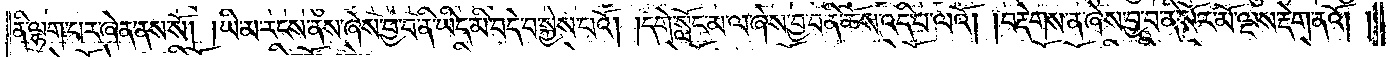ནི་ལྷག་པར་ཞེན་ནས་སོ། །ཡི་མ་རངས་ནས་ཞེས་བྱ་བ་ནི་ཡིད་མི་བདེ་བ་སྐྱེས་པའོ། །དགེ་སློང་མ་ལ་ཞེས་བྱ་བ་ནི་ཆོས་འདི་པ་ལའོ། །བརྡེགས་ན་ཞེས་བྱ་བ་ནི་སོར་མོ་ལྔས་རྡེག་ནའོ། །
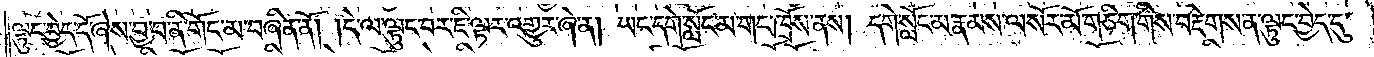ལྟུང་བྱེད་དོ་ཞེས་བྱ་བ་ནི་གོང་མ་བཞིན་ནོ། །དེ་ལ་ལྟུང་བར་ཇི་ལྟར་འགྱུར་ཞེ་ན། ཡང་དགེ་སློང་མ་གང་ཁྲོས་ནས། དགེ་སློང་མ་རྣམས་ལ་སོར་མོ་གཅིག་གིས་བརྡེགས་ན་ལྟུང་བྱེད་དུ་
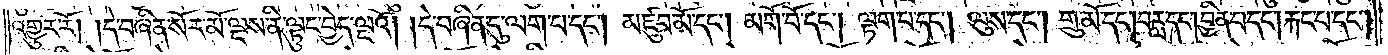འགྱུར་རོ། །དེ་བཞིན་སོར་མོ་ལྔས་ནི་ལྟུང་བྱེད་ལྔའོ། །དེ་བཞིན་དུ་ལག་པ་དང༌། མཛུབ་མོ་དང༌། མགོ་བོ་དང༌། ལྟག་པ་དང༌། ལུས་དང༌། གྲུ་མོ་དང༌། བརླ་དང༌། བྱིན་པ་དང༌། རྐང་པ་དང༌།
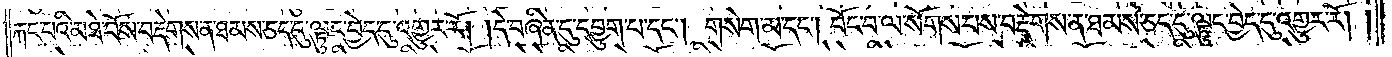རྐང་པའི་མཐེ་བོས་བརྡེགས་ན་ཐམས་ཅད་དུ་ལྟུང་བྱེད་དུ་འགྱུར་རོ། །དེ་བཞིན་དུ་དབྱུག་པ་དང༌། གསེག་མ་དང༌། བོང་བ་ལ་སོགས་པས་བརྡེགས་ན་ཐམས་ཅད་དུ་ལྟུང་བྱེད་དུ་འགྱུར་རོ། །
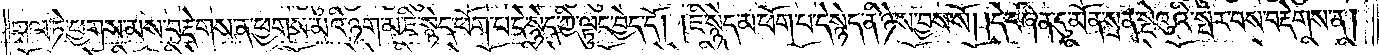གལ་ཏེ་ཕྱགས་མས་བརྡེགས་ན་ཕྱགས་མའི་ཉག་མ་ཇི་སྙེད་ཕོག་པ་དེ་སྙེད་ཀྱི་ལྟུང་བྱེད་དོ། །ཇི་སྙེད་མ་ཕོག་པ་དེ་སྙེད་ནི་ཉེས་བྱས་སོ། །དེ་བཞིན་དུ་མོན་སྲན་སྡེའུའི་སྤར་བས་བརྡེགས་ན།
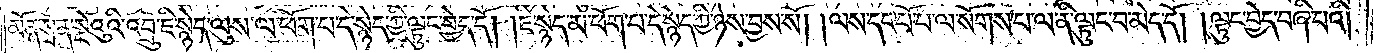མོན་སྲན་སྡེའུའི་འབྲུ་ཇི་སྙེད་ལུས་ལ་ཕོག་པ་དེ་སྙེད་ཀྱི་ལྟུང་བྱེད་དོ། །ཇི་སྙེད་མ་ཕོག་པ་དེ་སྙེད་ཀྱི་ཉེས་བྱས་སོ། །ལས་དང་པོ་པ་ལ་སོགས་པ་ལ་ནི་ལྟུང་བ་མེད་དོ། །ལྟུང་བྱེད་བཞི་པའི།
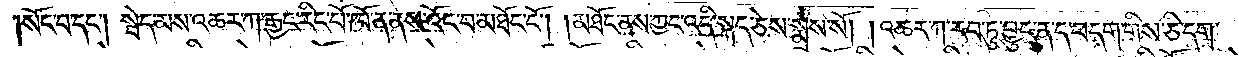སོང་བ་དང༌། སྦེད་མས་འཆར་ཀ་རྒྱང་རིང་པོ་ཁོ་ན་ནས་འོང་བ་མཐོང་ངོ༌། །མཐོང་ནས་ཀྱང་འདི་སྐད་ཅེས་སྨྲས་སོ། །འཆར་ཀ་རབ་ཏུ་བྱུང་ན་ད་བདག་གིས་ཅི་དག་
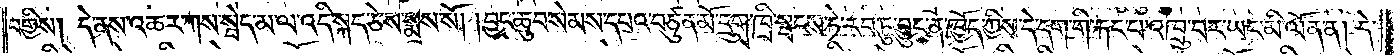བགྱིས། དེ་ནས་འཆར་ཀས་སྦེད་མ་ལ་འདི་སྐད་ཅེས་སྨྲས་སོ། །བྱང་ཆུབ་སེམས་དཔའ་བཙུན་མོ་དྲུག་ཁྲི་སྤངས་ཏེ་རབ་ཏུ་བྱུང་ན་ཁྱོད་ཀྱིས་དེ་དག་གི་རྐང་པ་འཁྲུ་བར་ཡང་མི་ལོན་ན། དེ་
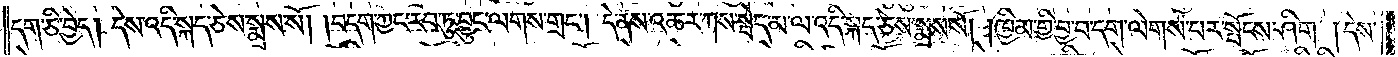དག་ཅི་བྱེད། དེས་འདི་སྐད་ཅེས་སྨྲས་སོ། །བདག་ཀྱང་རབ་ཏུ་བྱུང་ལགས་གྲངས། དེ་ནས་འཆར་ཀས་སྦེད་མ་ལ་འདི་སྐད་ཅེས་སྨྲས་སོ། །ཁྱིམ་གྱི་བྱ་བ་དག་ལེགས་པར་སྤོངས་ཤིག །དེས་
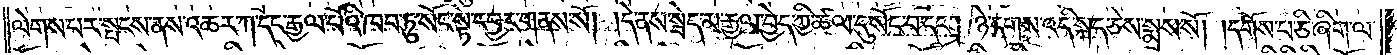ལེགས་པར་སྤངས་ནས་འཆར་ཀ་དང་རྒྱལ་པོའི་ཁབ་ཏུ་སོང་སྟེ་དབྱར་གནས་སོ། །དེ་ནས་སྦེད་མ་རྒྱལ་བྱེད་ཀྱི་ཚལ་དུ་སོང་བ་དང༌། ཉེ་དགས་འདི་སྐད་ཅེས་སྨྲས་སོ། །དགོས་པ་ཅི་ཞིག་ལ་
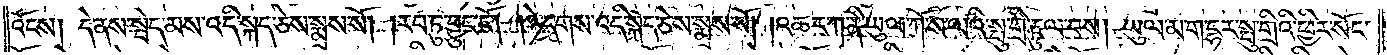འོངས། དེ་ནས་སྦེད་མས་འདི་སྐད་ཅེས་སྨྲས་སོ། །རབ་ཏུ་བྱུང་ངོ༌། །ཉེ་དགས་འདི་སྐད་ཅེས་སྨྲས་སོ། །འཆར་ཀ་ནི་ཡུལ་ཀོ་ས་ལའི་སྤུ་གྲི་རྟུལ་བས། ཡུལ་མ་ག་དྷར་སྤུ་གྲིའི་ཕྱིར་སོང་
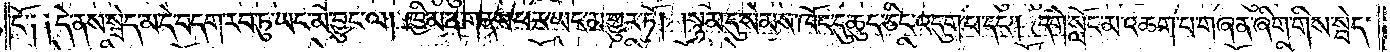ངོ་༑ ༑དེ་ནས་སྦེད་མ་དེ་བདག་རབ་ཏུ་ཡང་མ་བྱུང་ལ། ཁྱིམ་ན་གནས་པར་ཡང་མ་གྱུར་ཏོ། །སྙམ་དུ་སེམས་ཁོང་དུ་ཆུད་ཅིང་འདུག་པ་དང༌། དགེ་སློང་མ་འཆག་པ་གཞན་ཞིག་གིས་སྦེད་
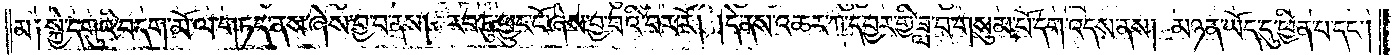མ༑ སྐྱེ་དགུའི་བདག་མོ་ལ་གཏད་ནས་ཞེས་བྱ་བ་ནས། རབ་ཏུ་ཕྱུང་ངོ་ཞེས་བྱ་བའི་བར་རོ། །དེ་ནས་འཆར་ཀ་དབྱར་གྱི་ཟླ་བ་གསུམ་པོ་དག་འདས་ནས། མཉན་ཡོད་དུ་ཕྱིན་པ་དང༌།
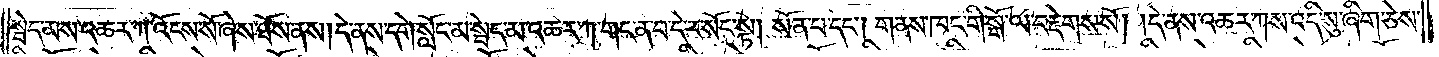སྦེད་མས་འཆར་ཀ་འོངས་སོ་ཞེས་ཐོས་ནས། དེ་ནས་དགེ་སློང་མ་སྦེད་མ་འཆར་ཀ་གང་ན་བ་དེར་སོང་སྟེ། སོན་པ་དང༌། གནས་ཁང་གི་སྒོ་ལ་བརྡེགས་སོ། །དེ་ནས་འཆར་ཀས་འདི་སུ་ཞིག་ཅེས་
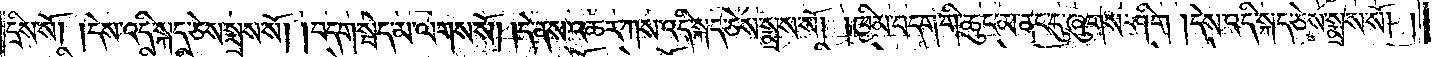དྲིས་སོ། །དེས་འདི་སྐད་ཅེས་སྨྲས་སོ། །བདག་སྦེད་མ་ལགས་སོ། །དེ་ནས་འཆར་ཀས་འདི་སྐད་ཅེས་སྨྲས་སོ། །ཁྱིམ་བདག་གི་ཆུང་མ་ནང་དུ་ཞུགས་ཤིག །དེས་འདི་སྐད་ཅེས་སྨྲས་སོ། །
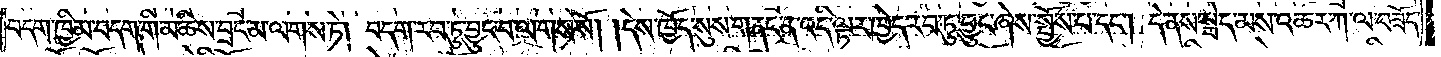བདག་ཁྱིམ་བདག་གི་མཆིས་བྲང་མ་ལགས་ཏེ། བདག་རབ་ཏུ་བྱུང་བ་ལགས་སོ། །དེས་ཁྱོད་སུས་གནང་ན་འདི་ལྟར་ཁྱེད་རབ་ཏུ་བྱུང་ཞེས་སྤྱོས་པ་དང༌། དེ་ནས་སྦེད་མས་འཆར་ཀ་ལ་བཟོད་
